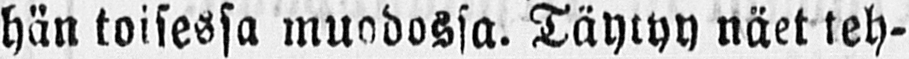hän toisessa muodossa. Täytyy näet teh-
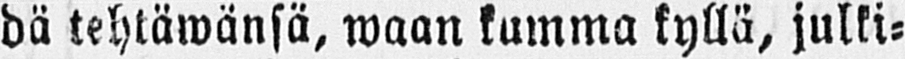dä tehtäwänsä, waan kumma kyllä, julki-
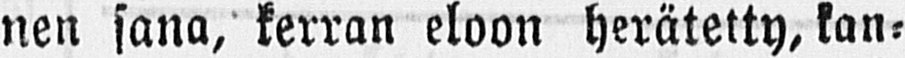nen sana, kerran eloon herätetty, kan-
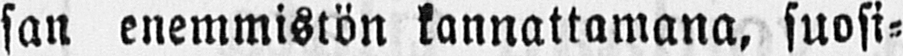san enemmistön kannattamana, suosi-
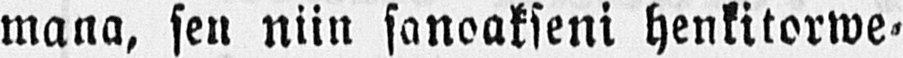mana, sen niin sanoakseni henkitorwe-
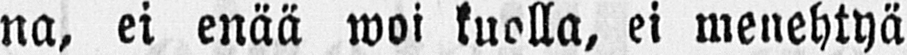na, ei enää woi kuolla, ei menehtyä
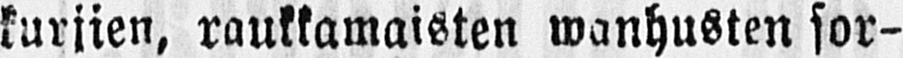kurjien, raukkamaisten wanhusten sor-
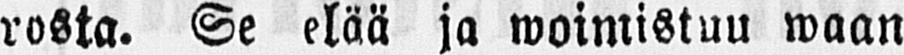rosta. Se elää ja woimistuu waan
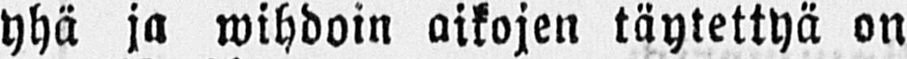yhä ja wihdoin aikojen täytettyä on
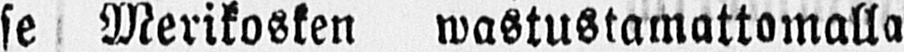se Merikosken wastustamattomalla
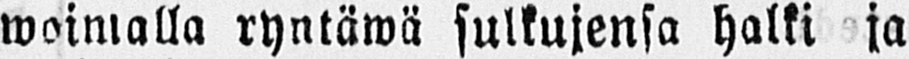woimalla ryntäwä sulkujensa halki ja
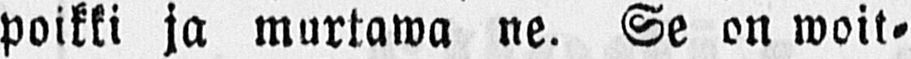poikki ja murtawa ne. Se on woit-
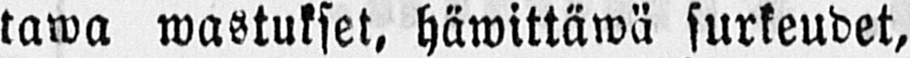tawa wastukset, häwittäwä surkeudet,
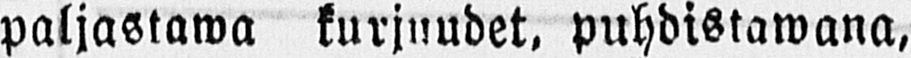paljastawa kurjuudet, puhdistawana,
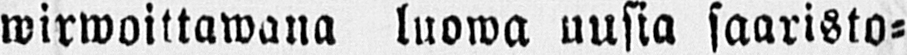wirwoittawana luowa uusia saaristo-
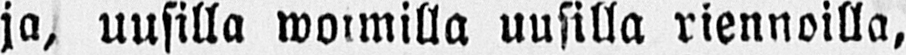ja, uusilla woimilla uusilla riennoilla,
